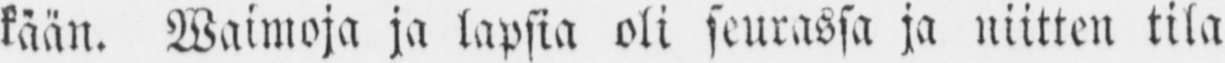kään. Waimoja ja lapsia oli seurassa ja niitten tila
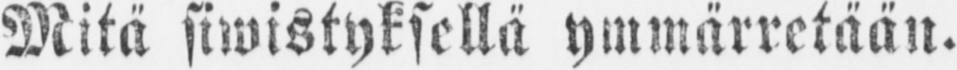Mitä siwistyksellä ymmärretään.
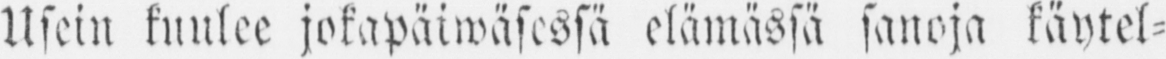Usein kuulee jokapäiwäsessä elämässä sanoja käytel-
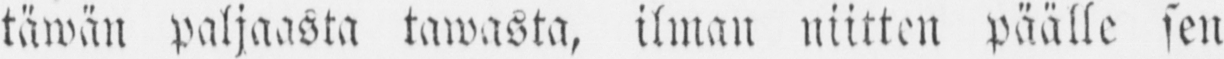täwän paljaasta tawasta, ilman niitten päälle sen
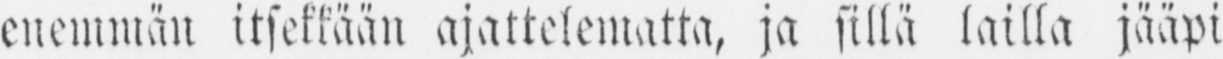enemmän itsekkään ajattelematta, ja sillä lailla jääpi
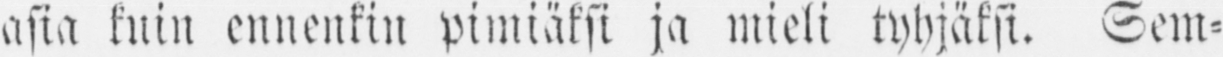asia kuin ennenkin pimiäksi ja mieli tyhjäksi. Sem-
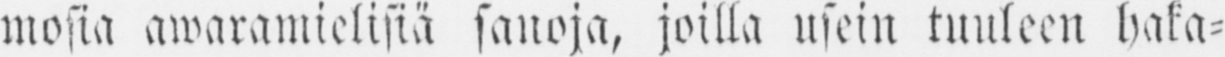mosia awaramielisiä sanoja, joilla usein tuuleen haka-
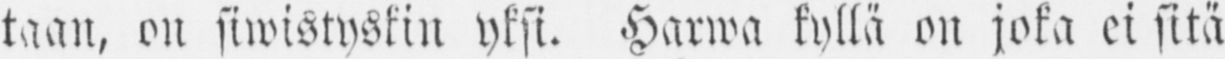taan, on siwistyskin yksi. Harwa kyllä on joka ei sitä
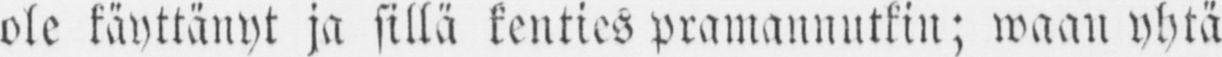ole käyttänyt ja sillä kenties pramannutkin; waan yhtä
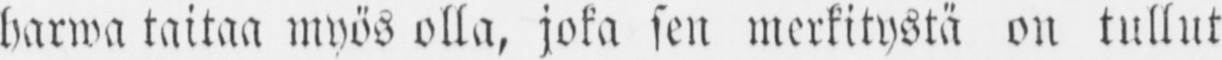harwa taitaa myös olla, joka sen merkitystä on tullut
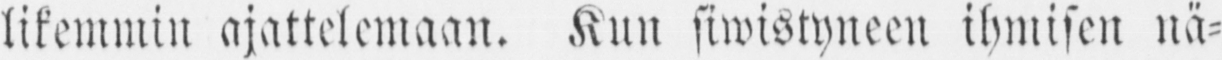likemmin ajattelemaan. Kun siwistyneen ihmisen nä-
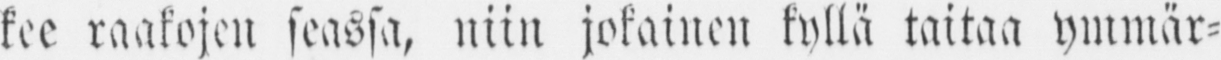kee raakojen seassa, niin jokainen kyllä taitaa ymmär-
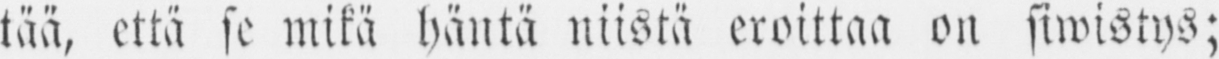tää, että se mikä häntä niistä eroittaa on siwistys;
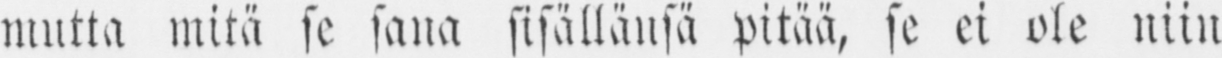mutta mitä se sana sisällänsä pitää, se ei ole niin
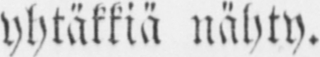yhtäkkiä nähty.
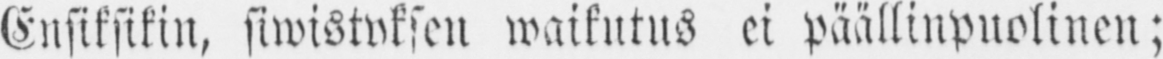Ensiksikin, siwistyksen waikutus ei päällinpuolinen;
